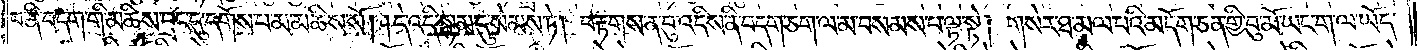པ་ནི་བདག་གི་མཆིས་བྲང་དུ་དགོས་པ་མ་མཆིས་སོ། །དེ་འདི་སྙམ་དུ་སེམས་ཏེ། བརྟགས་ན་བུ་འདིས་ནི་བདག་ཅག་ལ་མ་བསམས་པ་ལྟ་སྟེ། གསེར་ཐ་མལ་པའི་མདོག་ཅན་གྱི་བུ་མོ་ཡང་ག་ལ་ཡོད་
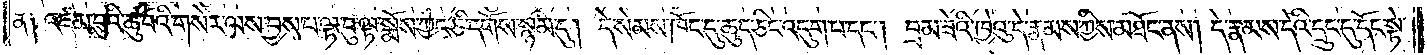ན༑ འཛམ་བུའི་ཆུ་བོའི་གསེར་ལས་བྱས་པ་ལྟ་བུ་ལྟ་སྨོས་ཀྱང་ཅི་དགོས་སྙམ་དུ། དེ་སེམས་ཁོང་དུ་ཆུད་ཅིང་འདུག་པ་དང༌། བྲམ་ཟེའི་ཁྱེའུ་དེ་རྣམས་ཀྱིས་མཐོང་ནས། དེ་རྣམས་དེའི་དྲུང་དུ་དོང་སྟེ་
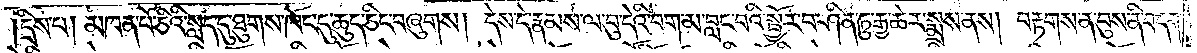དྲིས་པ། མཁན་པོ་ཅིའི་སླད་དུ་ཐུགས་ཁོང་དུ་ཆུད་ཅིང་བཞུགས། དེས་དེ་རྣམས་ལ་བུ་དེའི་བག་མ་བླང་བའི་སྦྱོར་བ་ཤིན་ཏུ་རྒྱ་ཆེར་སྨྲས་ནས། བརྟགས་ན་བུས་ནི་བདག་
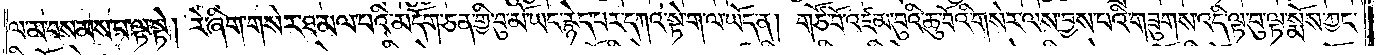ལ་མ་བསམས་པ་ལྟ་སྟེ། རེ་ཞིག་གསེར་ཐ་མལ་པའི་མདོག་ཅན་གྱི་བུ་མོ་ཡང་རྙེད་པར་དཀའ་སྟེ་ག་ལ་ཡོད་ན། གཙོ་བོ་འཛམ་བུའི་ཆུ་བོའི་གསེར་ལས་བྱས་པའི་གཟུགས་འདི་ལྟ་བུ་ལྟ་སྨོས་ཀྱང་
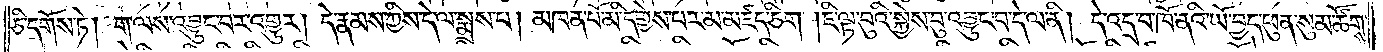ཅི་དགོས་ཏེ། ག་ལས་འབྱུང་བར་འགྱུར། དེ་རྣམས་ཀྱིས་དེ་ལ་སྨྲས་པ། མཁན་པོ་མི་དགྱེས་པར་མ་མཛད་ཅིག། །ཇི་ལྟ་བུའི་སྐྱེས་བུ་འབྱུང་བ་དེ་ལ་ནི། དེ་འདྲ་བ་ཁོ་ནའི་ཡོ་བྱད་ཕུན་སུམ་ཚོགས་
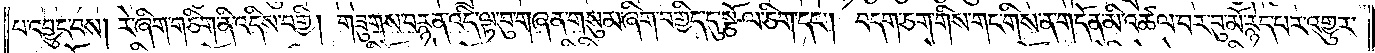པ་འབྱུང་བས། རེ་ཞིག་གཅིག་ནི་འདིས་བགྱི། གཟུགས་བརྙན་འདི་ལྟ་བུ་གཞན་གསུམ་ཞིག་བགྱིད་དུ་སྩོལ་ཅིག་དང༌། བདག་ཅག་གིས་གང་གིས་ན་གདོན་མི་འཚལ་བར་བུ་མོ་རྙེད་པར་འགྱུར་
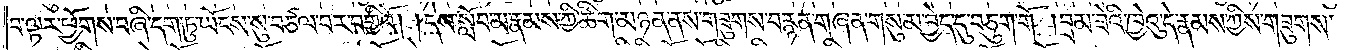བ་ལྟར་ཕྱོགས་བཞི་དག་ཏུ་ཡོངས་སུ་བཙལ་བར་བགྱིའོ། །དེས་སློབ་མ་རྣམས་ཀྱི་ཚིག་མཉན་ནས་གཟུགས་བརྙན་གཞན་གསུམ་བྱེད་དུ་བཅུག་གོ །བྲམ་ཟེའི་ཁྱེའུ་དེ་རྣམས་ཀྱིས་གཟུགས་
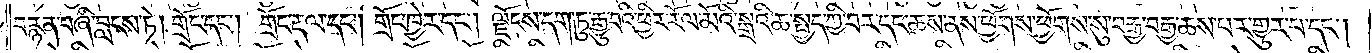བརྙན་བཞི་བླངས་ཏེ། གྲོང་དང༌། གྲོང་རྡལ་དང༌། གྲོང་ཁྱེར་དང༌། ལྗོངས་དག་ཏུ་རྒྱུ་བའི་ཕྱི་རོལ་མོའི་སྒྲའི་ཆ་སྤྱད་ཀྱི་བར་དང་ཆས་ནས་ཕྱོགས་ཕྱོགས་སུ་བརྒྱ་བརྒྱ་ཆས་པར་གྱུར་པ་དང༌།
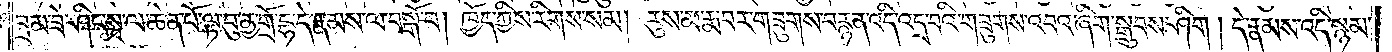བྲམ་ཟེ་ཤིང་སཱ་ལ་ཆེན་པོ་ལྟ་བུ་ནྱ་གྲོ་དྷ་དེ་རྣམས་ལ་བསྒོ་བ། ཁྱོད་ཀྱིས་རིགས་སམ། རུས་མ་རྨ་བར་གཟུགས་བརྙན་འདི་འདྲ་བའི་གཟུགས་འབའ་ཞིག་སྒྲུབས་ཤིག །དེ་རྣམས་འདི་སྙམ་
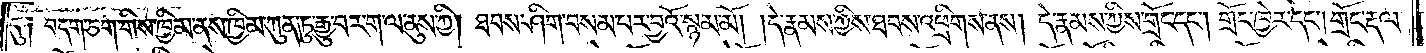དུ༑ བདག་ཅག་གིས་ཁྱིམ་ནས་ཁྱིམ་ཀུན་ཏུ་རྒྱུ་བར་ག་ལ་ནུས་ཀྱི། ཐབས་ཤིག་བསམ་པར་བྱའོ་སྙམ་མོ། །དེ་རྣམས་ཀྱིས་ཐབས་འཕྲིགས་ནས། དེ་རྣམས་ཀྱིས་གྲོང་དང༌། གྲོང་ཁྱེར་དང༌། གྲོང་རྡལ་
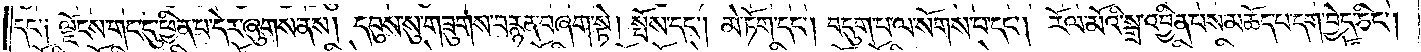དང༌། ལྗོངས་གང་སུ་ཕྱིན་པ་དེར་ཞུགས་ནས། དབུས་སུ་གཟུགས་བརྙན་བཞག་སྟེ། སྤོས་དང༌། མེ་ཏོག་དང༌། བདུག་པ་ལ་སོགས་པ་དང༌། རོལ་མོའི་སྒྲ་འབྱིན་པས་མཆོད་པ་དག་བྱེད་ཅིང༌།
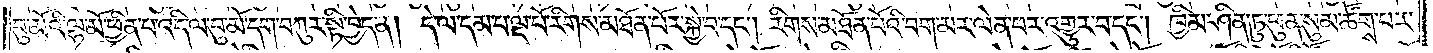བུ་མོའི་ལྷ་མོ་ཕྱིན་པ་འདི་ལ་བུ་མོ་དག་བཀུར་སྟི་བྱེད་ན། དེ་ལ་དམ་པ་ལྔ་པོ་རིགས་མཐོན་པོར་སྐྱེ་བ་དང༌། རིགས་མཐོན་པོའི་བག་མར་ལེན་པར་འགྱུར་བ་དང༌། ཁྱིམ་ཤིན་ཏུ་ཕུན་སུམ་ཚོགས་པར་
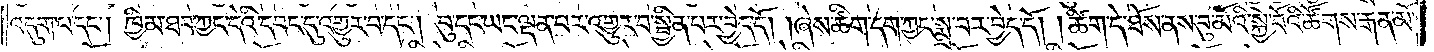འདུག་པ་དང༌། ཁྱིམ་ཐབ་ཀྱང་དེའི་དབང་དུ་འགྱུར་བ་དང༌། བུ་དང་ཡང་ལྡན་པར་འགྱུར་བ་སྦྱིན་པར་བྱེད་དོ། །ཞེས་ཚིག་དག་ཀྱང་སྨྲ་བར་བྱེད་དོ། །ཚིག་དེ་ཐོས་ནས་བུ་མོའི་སྐྱེ་བོའི་ཚོགས་རྒན་མོ་
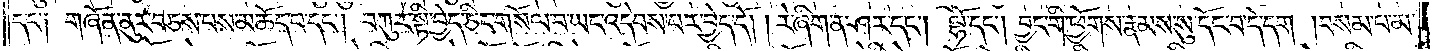དང་༑ གཞོན་ནུར་བཅས་པས་མཆོད་པ་དང༌། བཀུར་སྟི་བྱེད་ཅིང་གསོལ་བ་ཡང་འདེབས་པར་བྱེད་དོ། །རེ་ཞིག་ན་ཤར་དང༌། ལྷོ་དང༌། བྱང་གི་ཕྱོགས་རྣམས་སུ་དོང་བ་དེ་དག །བསམ་པ་མ་
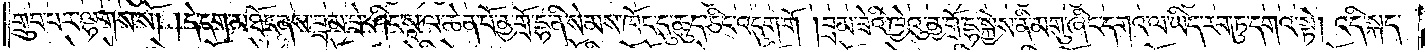གྲུབ་པར་ལྷགས་སོ། །དེ་དག་མཐོང་ནས་བྲམ་ཟེ་ཤིང་སཱ་ལ་ཆེན་པོ་ནྱ་གྲོ་དྷ་ནི་སེམས་ཁོང་དུ་ཆུད་ཅིང་འདུག་གོ །བྲམ་ཟེའི་ཁྱེའུ་ནྱ་གྲོ་དྷ་སྐྱེས་ནི་མགུ་ཞིང་དགའ་ལ་ཡིད་རབ་ཏུ་དགའ་སྟེ། འདི་སྐད་
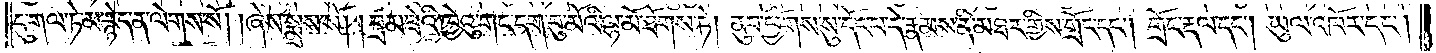དུ་གལ་ཏེ་མ་རྙེད་ན་ལེགས་སོ། །ཞེས་སྨྲས་སོ། །བྲམ་ཟེའི་ཁྱེའུ་གང་དག་བུ་མོའི་ལྷ་མོ་ཐོགས་ཏེ། ནུབ་ཕྱོགས་སུ་དོང་བ་དེ་རྣམས་ནི་མཐར་གྱིས་གྲོང་དང༌། གྲོང་རྡལ་དང༌། ཡུལ་འཁོར་དང༌།
